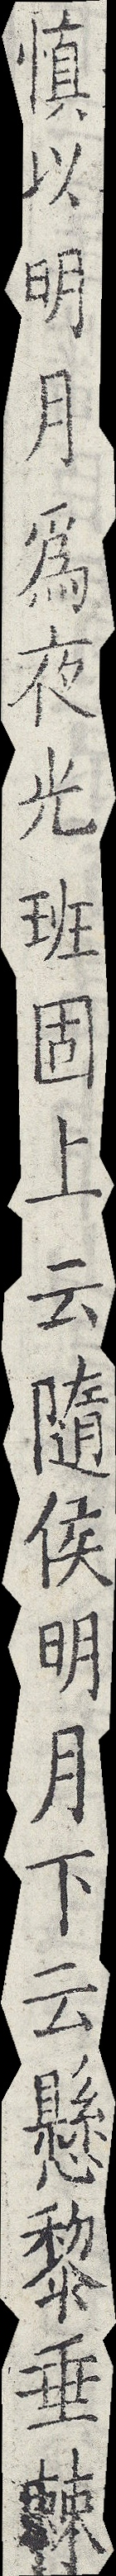慎以明月為夜光班固上云隨侯明月下云懸黎垂棘
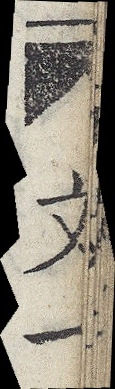文
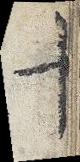七
